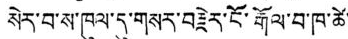སེར་བ་ས་ཁུལ་དུ་གསར་བརྗེར་ངོ་རྒོལ་བ་ཁ་ཚེ་
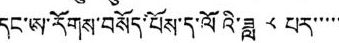དང་ཨ་རོགས་བསོད་པོས་ད་ལོའི་ཟླ ༨ པར་་་་་
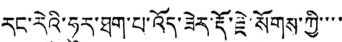རང་རེའི་ཧུར་ཐག་པ་འོད་ཟེར་རྡོ་རྗེ་སོགས་ཀྱི་་་་
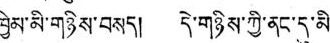ཁྱིམ་མི་གཉིས་བསད། དེ་གཉིས་ཀྱི་ནང་དུ་མི་
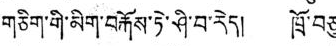གཅིག་གི་མིག་བརྐོས་ཏེ་ཤིས་བ་རེད། ཁྲོ་བཅུ་
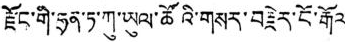རྫོང་གི་ཧྲན་ཏ་ཀུ་ཡུལ་ཚོའི་གསར་བརྗེར་ངོ་རྒོལ
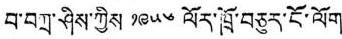བ་བཀྲ་ཤིས་ཀྱིས ༡༩༥༦ ལོར་ཁྲོ་བཅུར་ངོ་ལོག་
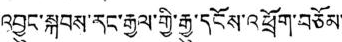འབྱུང་སྐབས་རང་རྒྱལ་གྱི་རྒྱུ་དངོས་འཕྲོག་བཅོམ་
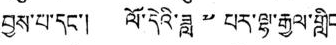བྱས་པ་དང་། ལོ་དེའི་ཟླ ༧ པར་ལྷ་རྒྱལ་གླིང་
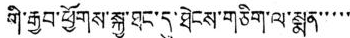གི་རྒྱབ་ཕྱོགས་སྐྱ་ཐང་དུ་ཐེངས་གཅིག་ལ་སྨན་་་་་
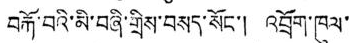བརྐོ་བའི་མི་བཞི་གྲིས་བསད་སོང་། འབྲོག་ཁུལ་
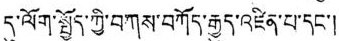དུ་ལོག་སྤྱོད་ཀྱི་བཀས་བཀོད་རྒྱུད་འཛིན་པ་དང་།
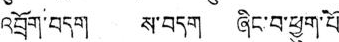འབྲོག་བདག ས་བདག ཞིང་བ་ཕྱུག་པོ་
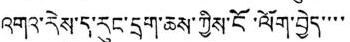འགའ་རེས་ད་རུང་དྲག་ཆས་ཀྱིས་ངོ་ལོག་བྱེད་་་་
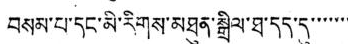བསམ་པ་དང་མི་རིགས་མཐུན་སྒྲིལ་ཐ་དད་དུ་་་་་་་
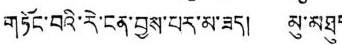གཏོང་བའི་རེ་ངན་བྱས་པར་མ་ཟད། མུ་མཐུད
